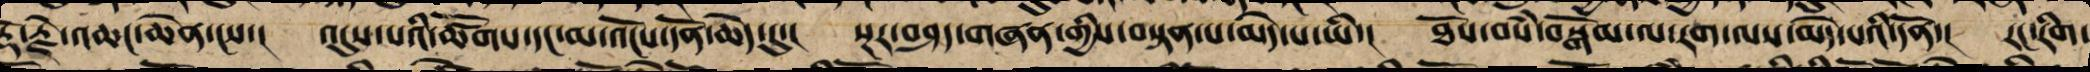རྡོ་རྗེ་འཆང་ཆེན་ངས་། འདུས་པའི་ཚོགས་དང་མ་འོངས་དོན་ཆེད་དུ་། སྔར་བཤད་གཞན་གྱིས་བསྟན་པ་མེད་པ་ཡི་། ཐོས་བསཾ་བསྒོམ་པར་རག་ལས་མེད་པའི་དོན་། རང་རིག་
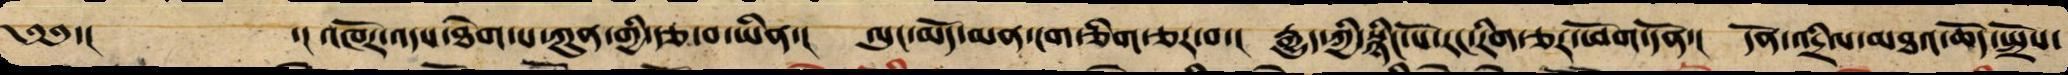༄༅་།  ་།འཁོར་འདས་ཐེག་པ་ཀུན་གྱི་རྩ་བ་ཡིན་། ལུང་མདོ་མན་ངག་ཅིག་ཆར་པ་། རྒྱུད་ཀྱི་སྙིང་པོ་རང་རིག་ཅར་ཕོག་དོན་། དོན་འདྲིལ་མཐའ་གཅོད་སྤྲོས་
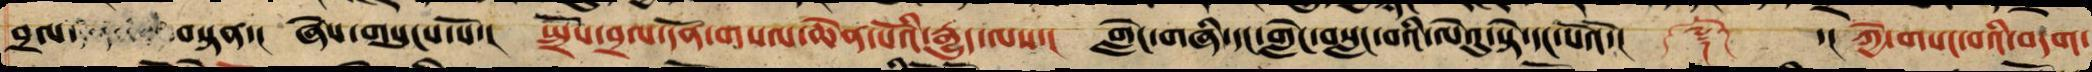བྲལ་ བསྟན་། ཞེས་གསུངས་སོ་། སྤྲོས་བྲལ་དོན་གསལ་ཆེན་པོའི་རྒྱུད་ལས་། གླེང་གཞི་དང་གླེང་བསླང་བའི་ལེའུ་སྟེ་དང་པོའོ་།། ༈ ་།། ཀྱེ་གསང་བའི་བདག་
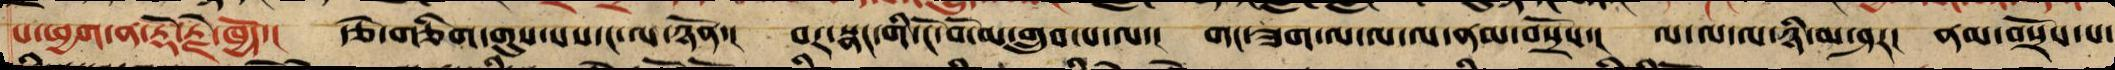པོ་ཕྱག་ན་རྡོ་རྗེ་ཁྱོད་། རྩེ་གཅིག་གུས་པས་ང་ལ་ཉོན་། བར་སྣང་གི་ངོ་བོ་མ་གྲུབ་པ་ལ་། གང་ཟག་ལ་ལ་ལ་ནམ་བསྲོས་། ལ་ལ་ལ་ཉི་མ་ཤར་། ནམ་བསྲོས་པ་
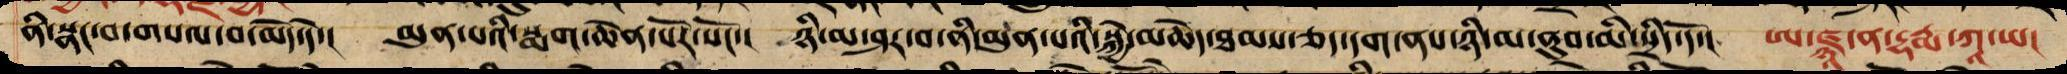ནི་སྣང་བ་གསལ་བ་མེད་དེ་། མུན་པའི་སྨག་ཆེན་པོར་སོང་། ཉི་མ་ཤར་བ་ནི་མུན་པའི་སྐྱེ་མཆེད་དག་ནས་ཉི་མ་ནུབ་མི་སྲིད་དོ་། ཨ་ཛྙཱ་ན་དྷརྨ་ཀཱ་ཡ།
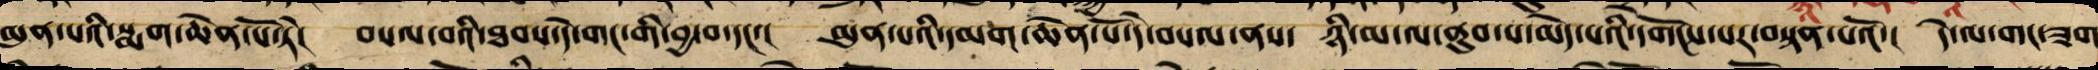མུན་པའི་སྨག་ཆེན་པོ་ཏེ་། བསལ་བའི་ཐབས་དེ་གང་གིས་བྱ་བ་དང་། མུན་པའི་དམག་ཆེན་པོ་དེ་བསལ་ནས་ ཉི་མ་ལ་ནུབ་པ་མེད་པའི་དགོངས་པར་བསྟན་པའོ་། དེ་ལ་གང་ཟག
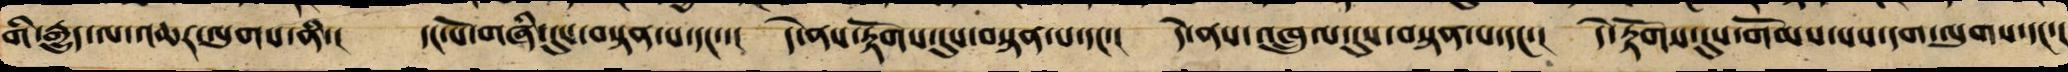གི་རྒྱུད་ལ་འཆར་ལུགས་ནི་། དང་པོ་གཞི་དུས་བསྟན་པ་དང་་། དེ་ནས་རྟོགས་དུས་བསྟན་པ་དང་། དེ་ནས་འཁྲུལ་དུས་བསྟན་པ་དང་། དེ་རྟོགས་དུས་གོམ་པས་དག་ལུགས་དང་།
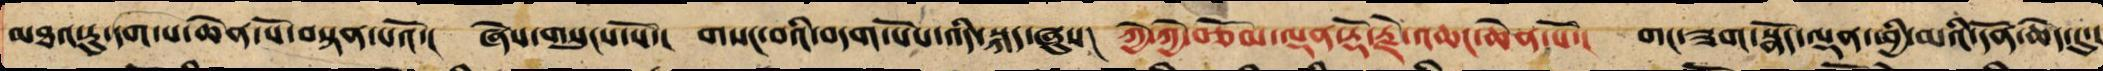མཐའ་རུ་དག་པ་ཆེན་པོ་བསྟན་པའོ་། ཞེས་གསུངས་སོ་། གསང་བའི་བདག་པོས་ཞུས་པ་། ཀྱེ་ཀྱེ་བཅོམ་ལྡན་རྡོ་རྗེ་འཆང་ཆེན་པོ་། གང་ཟག་སྣོད་ལྡན་ཕྱི་མའི་དོན་ཆེད་དུ་།
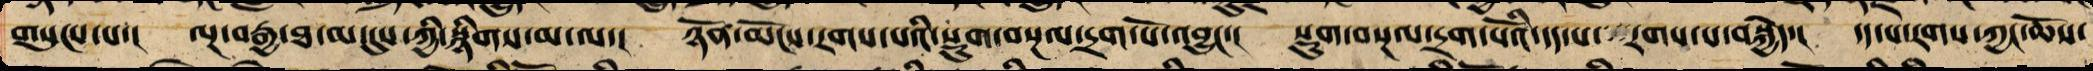གསུངས་པ་། ལྔ་བརྒྱ་ཐ་མ་དུས་ཀྱི་སྙིགས་མ་ལ་། ཉོན་མོངས་རགས་པས་སྡུག་བསྔལ་དྲག་པོ་འབྱུང་། སྡུག་བསྔལ་དྲག་པོས་དད་པ་རགས་པ་སྐྱེད་། དད་པ་རགས་ཀྱང་ཆོས་
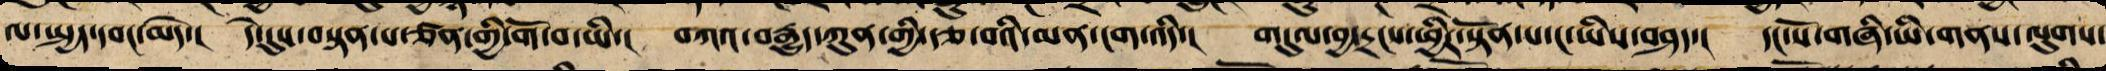ལ་སྤྱད་དབང་མེད་། དེ་དུས་བསྟན་པ་ཙམ་གྱིས་གོ་བ་ཡི་། བཀའ་རྒྱུད་ཀུན་གྱི་རྩ་བའི་མན་ངག་འདི་། གདུལ་བྱ་དྲངས་ཕྱིར་སྟོན་པ་ང་ཡིས་བཤད་། དང་པོ་གཞི་ཡི་གནས་ལུགས་
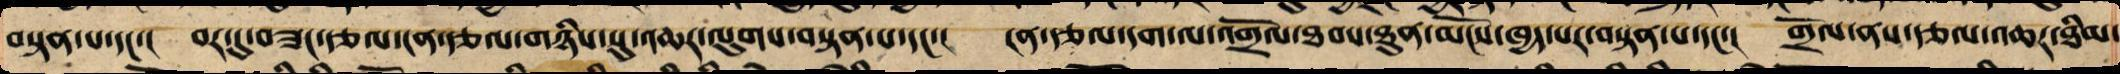བསྟན་པ་དང་། བར་དུ་བཟང་རྩལ་ངན་རྩལ་གཉིས་སུ་འཆར་ལུགས་བསྟན་པ་དང་། ངན་རྩལ་དག་ལས་འགྲོལ་ཐབས་ཐུན་མོང་ཁྱད་པར་བསྟན་པ་དང་། གྲོལ་ནས་རྩལ་འཆར་ཐིམ་
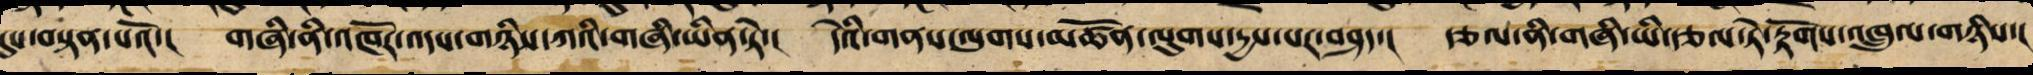དུས་བསྟན་པའོ་། གཞི་ནི་འཁོར་འདས་གཉིས་ཀའི་གཞི་ཡིན་ཏེ་། དེ་ཡི་གནས་ལུགས་མཚོན་ལུགས་རྒྱས་པར་བཤད་། རྩལ་ནི་གཞི་ཡི་རྩལ་དེ་རྟོགས་འཁྲུལ་གཉིས་།
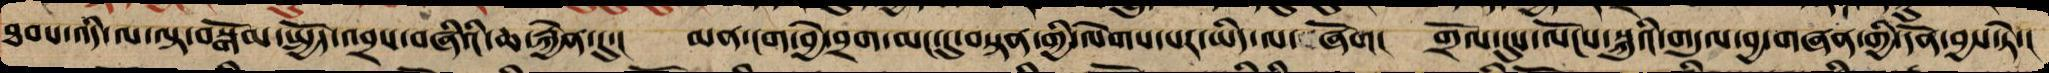ཐབས་འདི་ལ་ལྟ་བསྒོམ་སྤྱོད་འབྲས་བཞིའི་ཡི་ཆ་རྐྱེན་དུ་། མན་ངག་བྱེ་བྲག་མང་དུ་བསྟན་གྱིས་ལེགས་པར་ཡིད་ལ་ཞོག། གྲོལ་དུས་ལོངས་སྐུའི་གདུལ་བྱ་གཞན་གྱི་དོན་བྱས་ཏེ་།
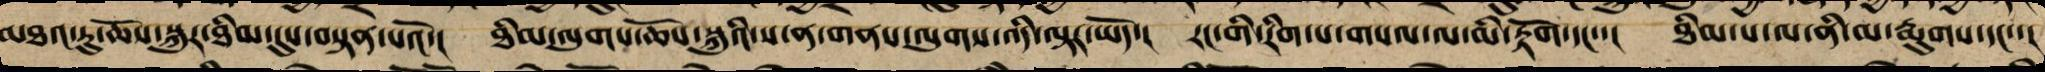མཐའ་རུ་ཆོས་སྐུར་ཐིམ་དུས་བསྟན་པའོ་། ཐིམ་ལུགས་ཆོས་སྐུའི་ས་ན་གནས་ལུགས་འདི་ལྟར་ཡོད་། རང་གི་རིག་པ་གསལ་བར་མི་རྟོག་དང་་། ཐིམ་པ་ལ་ནི་མ་རྨུགས་དང་་།
